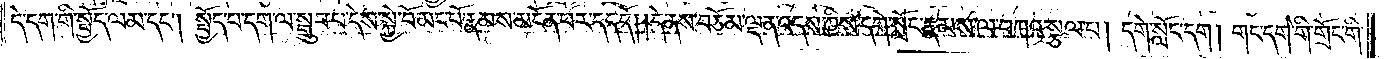དེ་དག་གི་སྤྱོད་ལམ་དང༌། སྤྱོད་པ་དག་ལ་སྒྲུབ་པ་དེས་སྐྱེ་བོ་མང་པོ་རྣམས་མངོན་པར་དད་དོ། །དེ་ནས་བཅོམ་ལྡན་འདས་ཀྱིས་དགེ་སློང་རྣམས་ལ་བཀའ་སྩལ་པ། དགེ་སློང་དག །གང་དག་གི་གྲོང་གི་
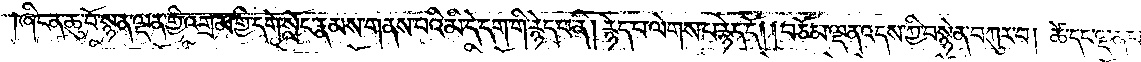ཞིང་ན་ཆུ་བོ་སྙན་ལྡན་གྱི་འགྲམ་གྱི་དགེ་སློང་རྣམས་གནས་པའི་མི་དེ་དག་གི་རྙེད་པ་ནི། རྙེད་པ་ལེགས་པ་རྙེད་དོ། །བཅོམ་ལྡན་འདས་ཀྱི་བསྙེན་བཀུར་བ། ཚེ་དང་ལྡན་པ་
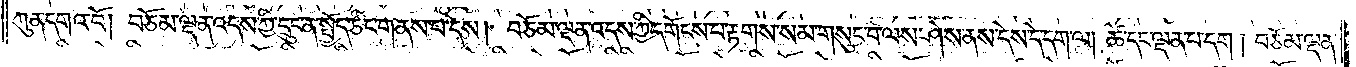ཀུན་དགའ་བོ། བཅོམ་ལྡན་འདས་ཀྱི་དྲུང་ན་སྤྱོད་ཅིང་གནས་པ་དེས། བཅོམ་ལྡན་འདས་ཀྱི་དགོངས་པ་རྟགས་སམ་གསུང་བ་ལས་ཤེས་ནས་དེས་དེ་དག་ལ། ཚེ་དང་ལྡན་པ་དག །བཅོམ་ལྡན་
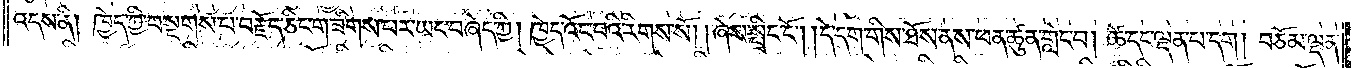འདས་ནི། ཁྱེད་ཀྱི་བསྔགས་པ་བརྗོད་ཅིང་གཟིགས་པར་ཡང་བཞེད་ཀྱི། ཁྱེད་འོང་བའི་རིགས་སོ། །ཞེས་སྤྲིང་ངོ༌། །དེ་དག་གིས་ཐོས་ནས་ཕན་ཚུན་གླེང་བ། ཚེ་དང་ལྡན་པ་དག། བཅོམ་ལྡན་
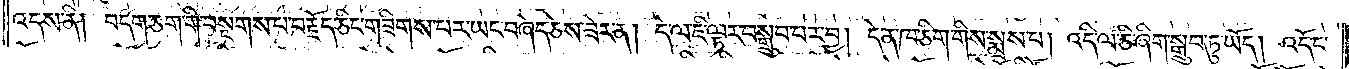འདས་ནི། བདག་ཅག་གི་བསྔགས་པ་བརྗོད་ཅིང་གཟིགས་པར་ཡང་བཞེད་ཅེས་ཟེར་ན། དེ་ལ་ཇི་ལྟར་བསྒྲུབ་པར་བྱ། དེ་ན་ཁ་ཅིག་གིས་སྨྲས་པ། འདི་ལ་ཅི་ཞིག་སྒྲུབ་ཏུ་ཡོད། འདོང་
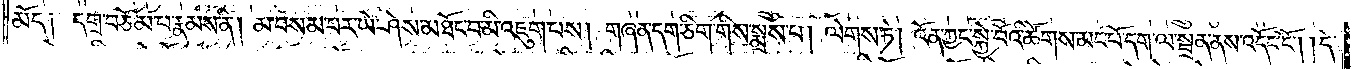མོད། དགྲ་བཅོམ་པ་རྣམས་ནི། མ་བསམ་པར་ཡེ་ཤེས་མཐོང་བ་མི་འཇུག་པས། གཞན་དག་ཅིག་གིས་སྨྲས་པ། ལེགས་ཏེ། འོན་ཀྱང་སྐྱེ་བོའི་ཚོགས་མང་པོ་དག་ལ་སྦྲན་ནས་འདོང་ངོ༌། །དེ་
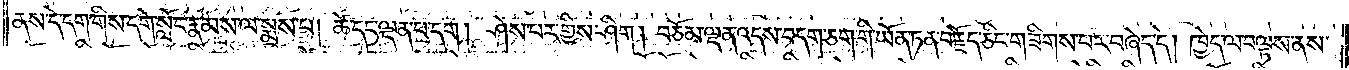ནས་དེ་དག་གིས་དགེ་སློང་རྣམས་ལ་སྨྲས་པ། ཚེ་དང་ལྡན་པ་དག །ཤེས་པར་གྱིས་ཤིག །བཅོམ་ལྡན་འདས་བདག་ཅག་གི་ཡོན་ཏན་བརྗོད་ཅིང་གཟིགས་པར་བཞེད་དེ། ཁྱེད་ལ་བལྟས་ནས་
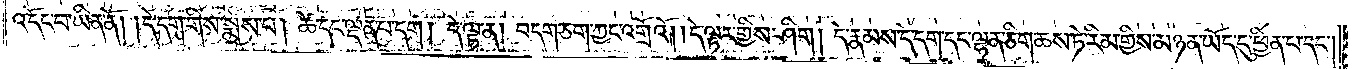འདོང་བ་ཡིན་ནོ། །དེ་དག་གིས་སྨྲས་པ། ཚེ་དང་ལྡན་པ་དག། དེ་ལྟ་ན། བདག་ཅག་ཀྱང་འགྲོའོ། །དེ་ལྟར་གྱིས་ཤིག །དེ་རྣམས་དེ་དག་དང་ལྷན་ཅིག་ཆས་ཏེ་རིམ་གྱིས་མཉན་ཡོད་དུ་ཕྱིན་པ་དང༌།
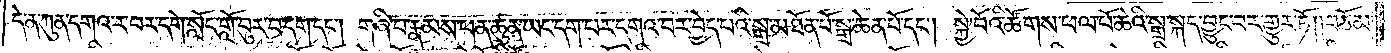དེ་ན་ཀུན་དགའ་ར་བར་དགེ་སློང་གློ་བུར་བ་དག་དང༌། གཞི་པ་རྣམས་ཕན་ཚུན་ཡང་དག་པར་དགའ་བར་བྱེད་པའི་སྒྲ་མཐོན་པོ་སྒྲ་ཆེན་པོ་དང༌། སྐྱེ་བོའི་ཚོགས་ཕལ་པོ་ཆེའི་སྒྲ་སྐད་བྱུང་བར་གྱུར་ཏོ། །བཅོམ་
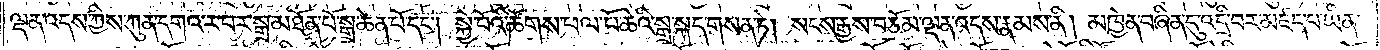ལྡན་འདས་ཀྱིས་ཀུན་དགའ་ར་བར་སྒྲ་མཐོན་པོ་སྒྲ་ཆེན་པོ་དང༌། སྐྱེ་བོའི་ཚོགས་ཕལ་པོ་ཆེའི་སྒྲ་སྐད་གསན་ཏེ། སངས་རྒྱས་བཅོམ་ལྡན་འདས་རྣམས་ནི། མཁྱེན་བཞིན་དུ་འདྲི་བར་མཛད་པ་ཡིན་
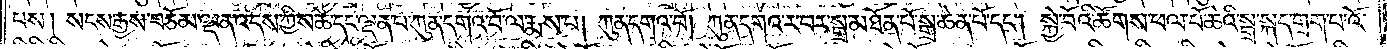པས། སངས་རྒྱས་བཅོམ་ལྡན་འདས་ཀྱིས་ཚེ་དང་ལྡན་པ་ཀུན་དགའ་བོ་ལ་རྨས་པ། ཀུན་དགའ་བོ། ཀུན་དགའ་ར་བར་སྒྲ་མཐོན་པོ་སྒྲ་ཆེན་པོ་དང༌། སྐྱེ་བོའི་ཚོགས་ཕལ་པོ་ཆེའི་སྒྲ་སྐད་གྲག་པ་འོ་
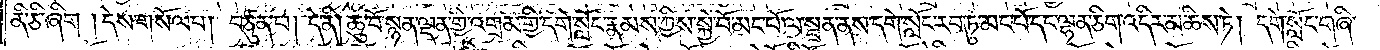ནི་ཅི་ཞིག །དེས་གསོལ་པ། བཙུན་པ། དེ་ནི། ཆུ་བོ་སྙན་ལྡན་གྱི་འགྲམ་གྱི་དགེ་སློང་རྣམས་ཀྱིས་སྐྱེ་བོ་མང་པོ་ལ་སྦྲན་ནས་དགེ་སློང་རབ་ཏུ་མང་པོ་དང་ལྷན་ཅིག་འདིར་མཆིས་ཏེ། དགེ་སློང་གཞི་
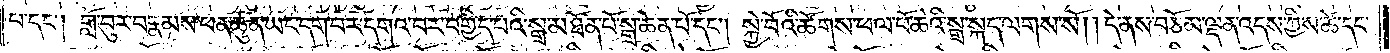པ་དང༌། གློ་བུར་བ་རྣམས་ཕན་ཚུན་ཡང་དག་པར་དགའ་བར་བགྱིད་པའི་སྒྲ་མཐོན་པོ་སྒྲ་ཆེན་པོ་དང༌། སྐྱེ་བོའི་ཚོགས་ཕལ་པོ་ཆེའི་སྒྲ་སྐད་ལགས་སོ། །དེ་ནས་བཅོམ་ལྡན་འདས་ཀྱིས་ཚེ་དང་
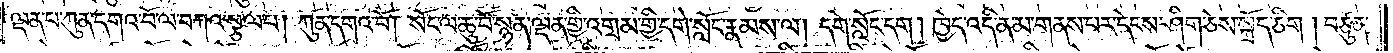ལྡན་པ་ཀུན་དགའ་བོ་ལ་བཀའ་སྩལ་པ། ཀུན་དགའ་བོ། སོང་ལ་ཆུ་བོ་སྙན་ལྡན་གྱི་འགྲམ་གྱི་དགེ་སློང་རྣམས་ལ། དགེ་སློང་དག །ཁྱེད་འདི་ན་མ་གནས་པར་དེངས་ཤིག་ཅེས་སྐྲོད་ཅིག །བཙུན་
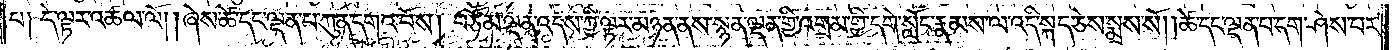པ། དེ་ལྟར་འཚལ་ལོ། །ཞེས་ཚེ་དང་ལྡན་པ་ཀུན་དགའ་བོས། བཅོམ་ལྡན་འདས་ཀྱི་ལྟར་མཉན་ནས་སྙན་ལྡན་གྱི་འགྲམ་གྱི་དགེ་སློང་རྣམས་ལ་འདི་སྐད་ཅེས་སྨྲས་སོ། །ཚེ་དང་ལྡན་པ་དག་ཤེས་པར་
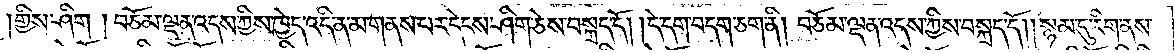གྱིས་ཤིག །བཅོམ་ལྡན་འདས་ཀྱིས་ཁྱེད་འདི་ན་མ་གནས་པར་དེངས་ཤིག་ཅེས་བསྐྲད་དོ། །དེ་དག་བདག་ཅག་ནི། བཅོམ་ལྡན་འདས་ཀྱིས་བསྐྲད་དོ། །སྙམ་དུ་རིག་ནས་
